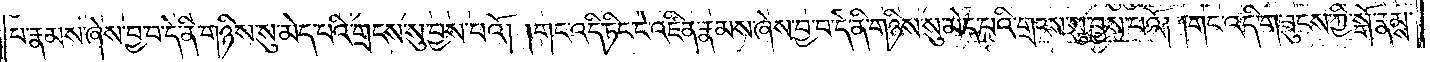པ་རྣམས་ཞེས་བྱ་བ་དེ་ནི་གཉིས་སུ་མེད་པའི་གྲངས་སུ་བྱས་པའོ། །གང་འདི་ཏིང་ངེ་འཛིན་རྣམས་ཞེས་བྱ་བ་དེ་ནི་གཉིས་སུ་མེད་པའི་གྲངས་སུ་བྱས་པའོ། །གང་འདི་གཟུངས་ཀྱི་སྒོ་རྣམས་
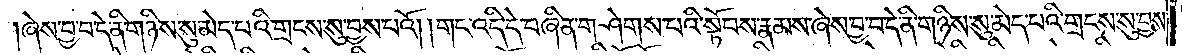ཞེས་བྱ་བ་དེ་ནི་གཉིས་སུ་མེད་པའི་གྲངས་སུ་བྱས་པའོ། །གང་འདི་དེ་བཞིན་གཤེགས་པའི་སྟོབས་རྣམས་ཞེས་བྱ་བ་དེ་ནི་གཉིས་སུ་མེད་པའི་གྲངས་སུ་བྱས་
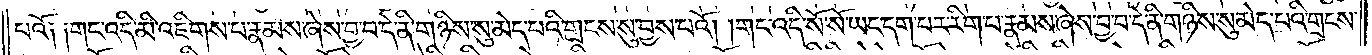པའོ༏ ༏གང་འདི་མི་འཇིགས་པ་རྣམས་ཞེས་བྱ་བ་དེ་ནི་གཉིས་སུ་མེད་པའི་གྲངས་སུ་བྱས་པའོ། །གང་འདི་སོ་སོ་ཡང་དག་པར་རིག་པ་རྣམས་ཞེས་བྱ་བ་དེ་ནི་གཉིས་སུ་མེད་པའི་གྲངས་
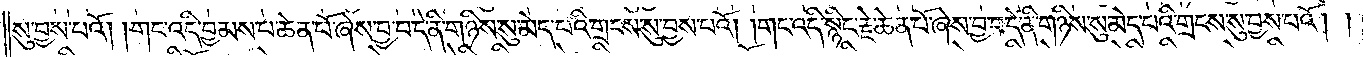སུ་བྱས་པའོ། །གང་འདི་བྱམས་པ་ཆེན་པོ་ཞེས་བྱ་བ་དེ་ནི་གཉིས་སུ་མེད་པའི་གྲངས་སུ་བྱས་པའོ། །གང་འདི་སྙིང་རྗེ་ཆེན་པོ་ཞེས་བྱ་བ་དེ་ནི་གཉིས་སུ་མེད་པའི་གྲངས་སུ་བྱས་པའོ། །
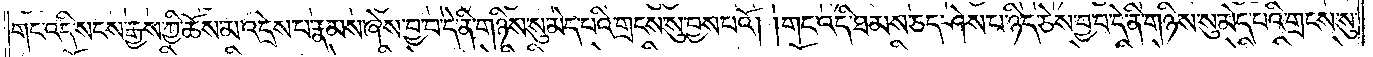གང་འདི་སངས་རྒྱས་ཀྱི་ཆོས་མ་འདྲེས་པ་རྣམས་ཞེས་བྱ་བ་དེ་ནི་གཉིས་སུ་མེད་པའི་གྲངས་སུ་བྱས་པའོ། །གང་འདི་ཐམས་ཅད་ཤེས་པ་ཉིད་ཅེས་བྱ་བ་དེ་ནི་གཉིས་སུ་མེད་པའི་གྲངས་སུ་
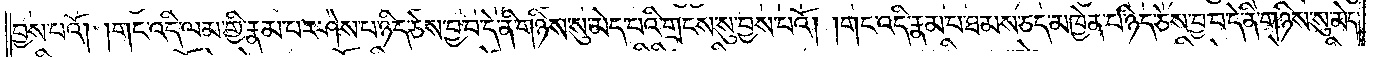བྱས་པའོ། །གང་འདི་ལམ་གྱི་རྣམ་པ་ཤེས་པ་ཉིད་ཅེས་བྱ་བ་དེ་ནི་གཉིས་སུ་མེད་པའི་གྲངས་སུ་བྱས་པའོ། །གང་འདི་རྣམ་པ་ཐམས་ཅད་མཁྱེན་པ་ཉིད་ཅེས་བྱ་བ་དེ་ནི་གཉིས་སུ་མེད་
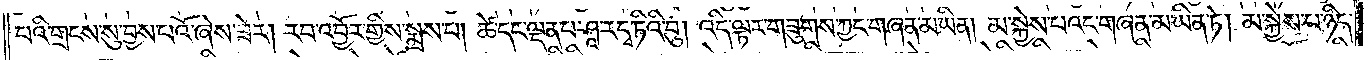པའི་གྲངས་སུ་བྱས་པའོ་ཞེས་ཟེར། རབ་འབྱོར་གྱིས་སྨྲས་པ། ཚེ་དང་ལྡན་པ་ཤཱ་ར་དྭ་ཏིའི་བུ། འདི་ལྟར་གཟུགས་ཀྱང་གཞན་མ་ཡིན། མ་སྐྱེས་པའང་གཞན་མ་ཡིན་ཏེ། མ་སྐྱེས་པ་ཉིད་
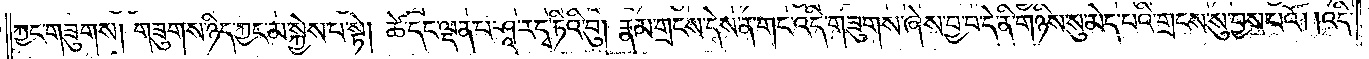ཀྱང་གཟུགས། གཟུགས་ཉིད་ཀྱང་མ་སྐྱེས་པ་སྟེ། ཚེ་དང་ལྡན་པ་ཤཱ་ར་དྭ་ཏིའི་བུ། རྣམ་གྲངས་དེས་ན་གང་འདི་གཟུགས་ཞེས་བྱ་བ་དེ་ནི་གཉིས་སུ་མེད་པའི་གྲངས་སུ་བྱས་པའོ། །འདི་
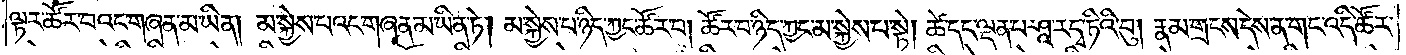ལྟར་ཚོར་བའང་གཞན་མ་ཡིན། མ་སྐྱེས་པའང་གཞན་མ་ཡིན་ཏེ། མ་སྐྱེས་པ་ཉིད་ཀྱང་ཚོར་བ། ཚོར་བ་ཉིད་ཀྱང་མ་སྐྱེས་པ་སྟེ། ཚེ་དང་ལྡན་པ་ཤཱ་ར་དྭ་ཏིའི་བུ། རྣམ་གྲངས་དེས་ན་གང་འདི་ཚོར་
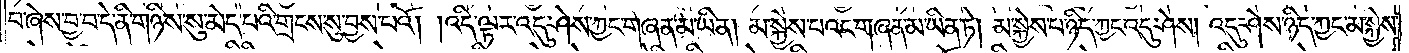བ་ཞེས་བྱ་བ་དེ་ནི་གཉིས་སུ་མེད་པའི་གྲངས་སུ་བྱས་པའོ། །འདི་ལྟར་འདུ་ཤེས་ཀྱང་གཞན་མ་ཡིན། མ་སྐྱེས་པའང་གཞན་མ་ཡིན་ཏེ། མ་སྐྱེས་པ་ཉིད་ཀྱང་འདུ་ཤེས། འདུ་ཤེས་ཉིད་ཀྱང་མ་སྐྱེས་
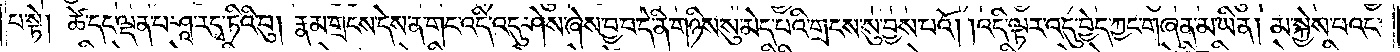པ་སྟེ། ཚེ་དང་ལྡན་པ་ཤཱ་ར་དྭ་ཏིའི་བུ། རྣམ་གྲངས་དེས་ན་གང་འདི་འདུ་ཤེས་ཞེས་བྱ་བ་དེ་ནི་གཉིས་སུ་མེད་པའི་གྲངས་སུ་བྱས་པའོ། །འདི་ལྟར་འདུ་བྱེད་ཀྱང་གཞན་མ་ཡིན། མ་སྐྱེས་པའང་
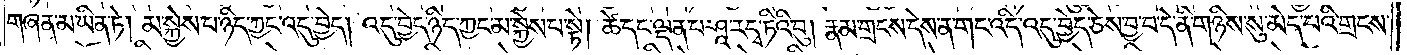གཞན་མ་ཡིན་ཏེ། མ་སྐྱེས་པ་ཉིད་ཀྱང་འདུ་བྱེད། འདུ་བྱེད་ཉིད་ཀྱང་མ་སྐྱེས་པ་སྟེ། ཚེ་དང་ལྡན་པ་ཤཱ་ར་དྭ་ཏིའི་བུ། རྣམ་གྲངས་དེས་ན་གང་འདི་འདུ་བྱེད་ཅེས་བྱ་བ་དེ་ནི་གཉིས་སུ་མེད་པའི་གྲངས་
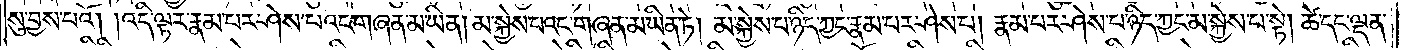སུ་བྱས་པའོ། །འདི་ལྟར་རྣམ་པར་ཤེས་པའང་གཞན་མ་ཡིན། མ་སྐྱེས་པའང་གཞན་མ་ཡིན་ཏེ། མ་སྐྱེས་པ་ཉིད་ཀྱང་རྣམ་པར་ཤེས་པ། རྣམ་པར་ཤེས་པ་ཉིད་ཀྱང་མ་སྐྱེས་པ་སྟེ། ཚེ་དང་ལྡན་
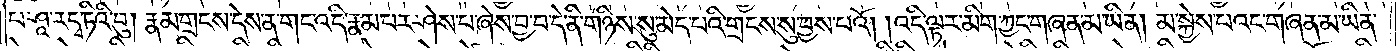པ་ཤཱ་ར་དྭ་ཏིའི་བུ། རྣམ་གྲངས་དེས་ན་གང་འདི་རྣམ་པར་ཤེས་པ་ཞེས་བྱ་བ་དེ་ནི་གཉིས་སུ་མེད་པའི་གྲངས་སུ་བྱས་པའོ། །འདི་ལྟར་མིག་ཀྱང་གཞན་མ་ཡིན། མ་སྐྱེས་པའང་གཞན་མ་ཡིན་
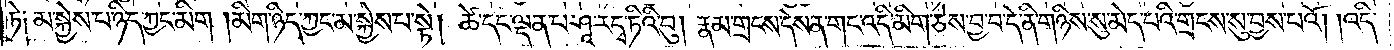ཏེ༏ མ་སྐྱེས་པ་ཉིད་ཀྱང་མིག །མིག་ཉིད་ཀྱང་མ་སྐྱེས་པ་སྟེ། ཚེ་དང་ལྡན་པ་ཤཱ་ར་དྭ་ཏིའི་བུ། རྣམ་གྲངས་དེས་ན་གང་འདི་མིག་ཅེས་བྱ་བ་དེ་ནི་གཉིས་སུ་མེད་པའི་གྲངས་སུ་བྱས་པའོ། །འདི་
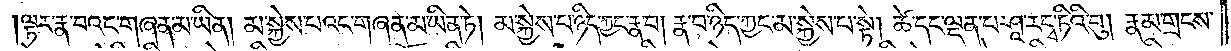ལྟར་རྣ་བའང་གཞན་མ་ཡིན། མ་སྐྱེས་པའང་གཞན་མ་ཡིན་ཏེ། མ་སྐྱེས་པ་ཉིད་ཀྱང་རྣ་བ། རྣ་བ་ཉིད་ཀྱང་མ་སྐྱེས་པ་སྟེ། ཚེ་དང་ལྡན་པ་ཤཱ་ར་དྭ་ཏིའི་བུ། རྣམ་གྲངས་
